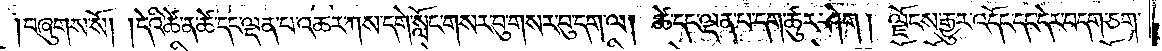བཞུགས་སོ། །དེའི་ཚེ་ན་ཚེ་དང་ལྡན་པ་འཆར་ཀས་དགེ་སློང་གསར་བུ་གསར་བུ་དག་ལ། ཚེ་དང་ལྡན་པ་དག་ཚུར་ཤེག། ལྗོངས་རྒྱུར་འདོང་དང་དེར་བདག་ཅག་
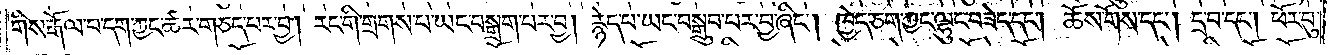གིས་རྒོལ་བ་དག་ཀྱང་ཚར་གཅད་པར་བྱ། རང་གི་གྲགས་པ་ཡང་བསྒྲག་པར་བྱ། རྙེད་པ་ཡང་བསྒྲུབ་པར་བྱ་ཞིང༌། ཁྱེད་ཅག་ཀྱང་ལྷུང་བཟེད་དང༌། ཆོས་གོས་དང༌། དྲ་བ་དང༌། ཕོར་བུ་
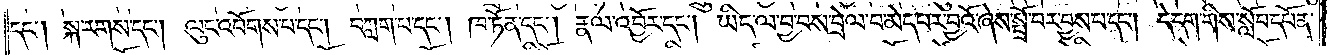དང༌། སྐ་རགས་དང༌། ལུང་འབོགས་པ་དང༌། བཀླག་པ་དང༌། ཁ་ཏོན་དང༌། རྣལ་འབྱོར་དང༌། ཡིད་ལ་བྱ་བས་བྲེལ་བ་མེད་པར་བྱའོ་ཞེས་སྤྲོ་བར་བྱས་པ་དང༌། དེ་དག་གིས་སློབ་དཔོན་
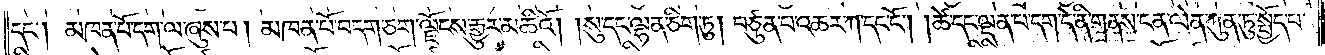དང༌། མཁན་པོ་དག་ལ་ཞུས་པ། མཁན་པོ་བདག་ཅག་ལྗོངས་རྒྱུར་མཆིའོ། །སུ་དང་ལྷན་ཅིག་ཏུ། བཙུན་པ་འཆར་ཀ་དང་ངོ༌། །ཚེ་དང་ལྡན་པ་དག་དེ་ནི་གནས་ངན་ལེན་ཀུན་ཏུ་སྤྱོད་པ་
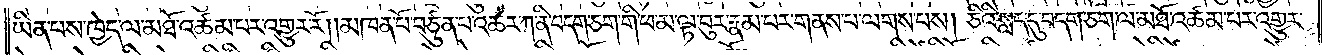ཡིན་པས་ཁྱེད་ལ་མཐོ་འཚམ་པར་འགྱུར་རོ། །མཁན་པོ་བཙུན་པ་འཆར་ཀ་ནི་བདག་ཅག་གི་ཕ་མ་ལྟ་བུར་རྣམ་པར་གནས་པ་ལགས་པས། ཅིའི་སླད་དུ་བདག་ཅག་ལ་མཐོ་འཚམ་པར་འགྱུར་
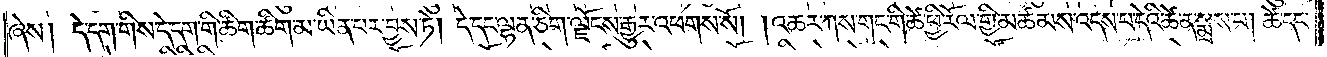ཞེས། དེ་དག་གིས་དེ་དག་གི་ཚིག་ཚིག་མ་ཡིན་པར་བྱས་ཏེ། དེ་དང་ལྷན་ཅིག་ལྗོངས་རྒྱུར་འཕགས་སོ། །འཆར་ཀས་གང་གི་ཚེ་ཕྱི་རོལ་གྱི་མཚམས་འདས་པ་དེའི་ཚེ་ན་སྨྲས་པ། ཚེ་དང་
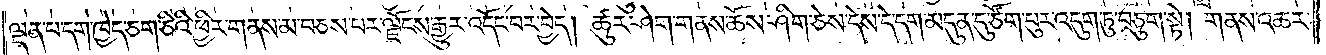ལྡན་པ་དག་ཁྱེད་ཅག་ཅིའི་ཕྱིར་གནས་མ་བཅས་པར་ལྗོངས་རྒྱུར་འདོང་བར་བྱེད། ཚུར་ཤེག་གནས་ཆོས་ཤིག་ཅེས་དེས་དེ་དག་མདུན་དུ་ཙོག་པུར་འདུག་ཏུ་བཅུག་སྟེ། གནས་འཆར་
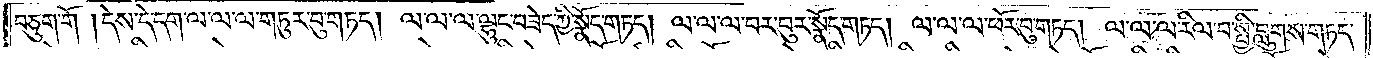བཅུག་གོ །དེས་དེ་དག་ལ་ལ་ལ་གཏུར་བུ་གཏད། ལ་ལ་ལ་ལྷུང་བཟེད་ཀྱི་སྣོད་གཏད། ལ་ལ་ལ་བར་བུར་སྣོད་གཏད། ལ་ལ་ལ་ཕོར་བུ་གཏད། ལ་ལ་ལ་རིལ་བ་སྤྱི་བླུགས་གཏད་
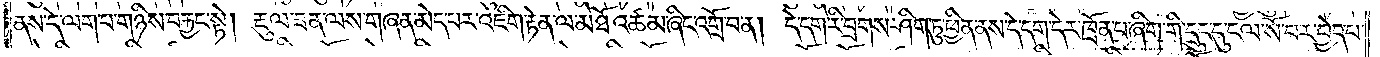ནས་དེ་ལག་པ་གཉིས་བརྐྱང་སྟེ། རྡུལ་ཟན་ལས་གཞན་མེད་པར་འཇིག་རྟེན་ལ་མཐོ་འཚམ་ཞིང་འགྲོ་བ་ན། དེ་དག་རི་བྲགས་ཤིག་ཏུ་ཕྱིན་ནས་དེ་དག་དེར་ཁྲོན་པ་ཞིག་གི་དྲུང་དུ་ངལ་སོ་བར་བྱེད་པ་
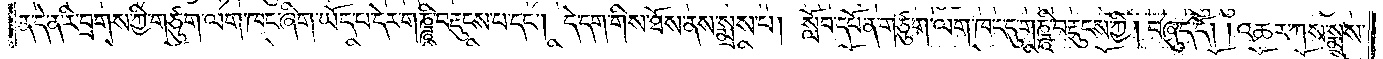ན་དེ་ན་རི་བྲགས་ཀྱི་གཙུག་ལག་ཁང་ཞིག་ཡོད་པ་དེར་གཎྜཱི་བརྡུངས་པ་དང༌། དེ་དག་གིས་ཐོས་ནས་སྨྲས་པ། སློབ་དཔོན་གཙུག་ལག་ཁང་དུ་གཎྜཱི་བརྡུངས་ཀྱི། བཞུད་དོ། །འཆར་ཀས་སྨྲས་
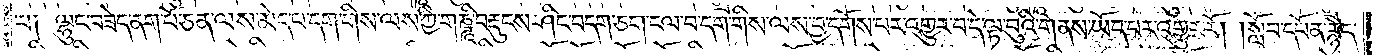པ༑ ལྷུང་བཟེད་ནག་པོ་ཅན་ལས་མེད་པ་དག་གིས་ལས་ཀྱི་གཎྜཱི་བརྡུངས་ཤིང་བདག་ཅག་ངལ་བ་དག་གིས་ལས་བྱ་དགོས་པར་འགྱུར་བ་དེ་ལྟ་བུའི་གནས་ཡོད་པར་འགྱུར་རོ། །སློབ་དཔོན་རྙེད་
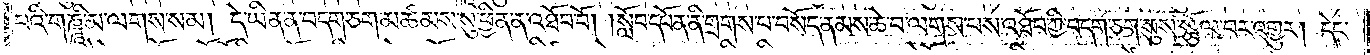པའི་གཎྜཱི་མ་ལགས་སམ། དེ་ཡིན་ན་བདག་ཅག་མཚམས་སུ་ཕྱིན་ན་འཐོབ་བོ། །སློབ་དཔོན་ནི་གྲགས་པ་བསོད་ནམས་ཆེ་བ་ལགས་པས་འཐོབ་ཀྱི་བདག་ཅག་སུས་སྩོལ་བར་འགྱུར། དེང་
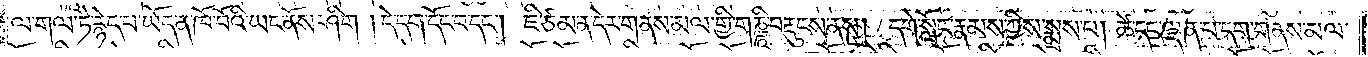ལ་གལ་ཏེ་རྙེད་པ་ཡོད་ན་ཁོ་བོའི་ཡང་ནོས་ཤིག །དེ་དག་དོང་བ་དང༌། ཇི་ཙམ་ན་དེར་གནས་མལ་གྱི་གཎྜཱི་བརྡུངས་ནས། དགེ་སློང་རྣམས་ཀྱིས་སྨྲས་པ། ཚེ་དང་ལྡན་པ་དག་གནས་མལ་
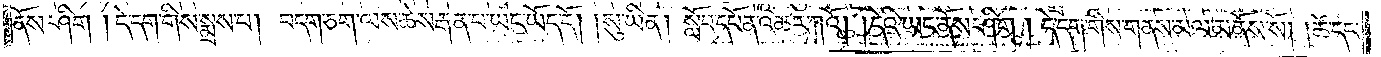ནོས་ཤིག །དེ་དག་གིས་སྨྲས་པ། བདག་ཅག་ལས་ཆེས་རྒན་པ་ཡང་ཡོད་དོ། །སུ་ཡིན། སློབ་དཔོན་འཆར་ཀའོ། །དེའི་ཡང་ནོས་ཤིག །དེ་དག་གིས་གནས་མལ་མནོས་སོ། །ཚེ་དང་
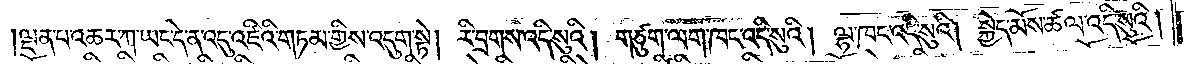ལྡན་པ་འཆར་ཀ་ཡང་དེ་ན་འདུ་འཛིའི་གཏམ་གྱིས་འདུག་སྟེ། རི་བྲགས་འདི་སུའི། གཙུག་ལག་ཁང་འདི་སུའི། ལྷ་ཁང་འདི་སུའི། སྐྱེད་མོས་ཚལ་འདི་སུའི།
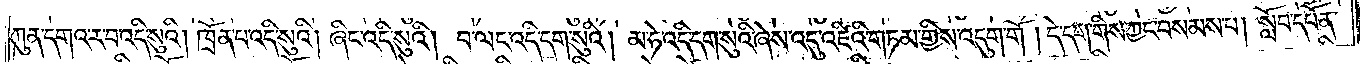ཀུན་དགའ་ར་བ་འདི་སུའི། ཁྲོན་པ་འདི་སུའི། ཞིང་འདི་སུའི། བ་ལང་འདི་དག་སུའི། མ་ཧེ་འདི་དག་སུའི་ཞེས་འདུ་འཛིའི་གཏམ་གྱིས་འདུག་གོ །དེ་དག་གིས་ཀྱང་བསམས་པ། སློབ་དཔོན་
